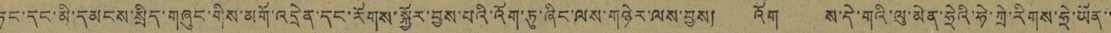ཏང་དང་མི་དམངས་སྲིད་གཞུང་གིས་མགོ་འདྲེན་དང་རོགས་སྐྱོར་བྱས་པའི་འོག་ཏུ་ཞིང་ལས་གཉེར་ལས་བྱས། འོག ས་དེ་གའི་ལུ་མེན་ཧྲེའི་ཧེ་ཧྲི་རིགས་ཧྲེ་ཡོན་་
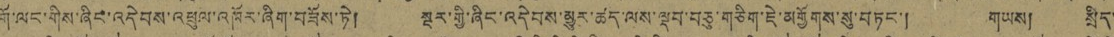གོ་ལང་གིས་ཞིང་འདེབས་འཕྲུལ་འཁོར་ཞིག་བཟོས་ཏེ། སྔར་གྱི་ཞིང་འདེབས་མྱུར་ཚད་ལས་ལྡབ་བཅུ་གཅིག་ཇེ་མགྱོགས་སུ་བཏང་། གཡས། སྲིད་
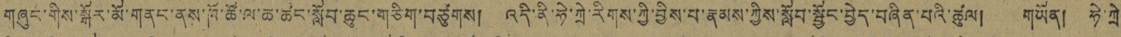གཞུང་གིས་སྒོར་མོ་གནང་ནས་ཁོ་ཚོ་ལ་ཆ་ཚང་སློབ་ཆུང་གཅིག་བཙུགས། འདི་ནི་ཧྲེ་ཀྲེ་རིགས་ཀྱི་བྱིས་པ་རྣམས་ཀྱིས་སློབ་སྦྱོང་བྱད་བཞིན་པའི་ཚུལ། གཡོན། ཧེ་ཀྲེ
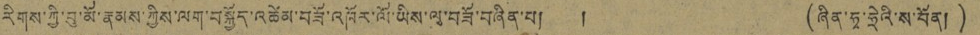རིགས་ཀྱི་བུ་མོ་རྣམས་ཀྱིས་ལག་བསྐྱོད་འཚེམ་བཟོ་འཁོར་ལོ་ཡིས་ལུ་བཟོ་བཞིན་པ། ། (ཞིན་ཧྭ་ཧྲེའི་ས་བོན།)
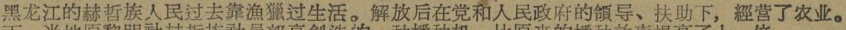黑龙江的赫哲族人民过去靠漁獵过生活。解放后在党和人民政府的領导、扶助下，經营了农业。
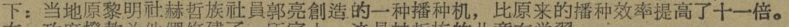下：当地原黎明社赫哲族社員郭亮創造的一种播种机，比原来的播种效率提高了十一倍。
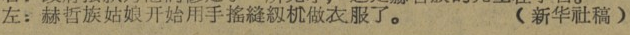左：赫哲族姑娘开始用手搖縫紉机做衣服了。 （新华社稿）
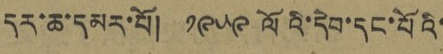དར་ཆ་དམར་པོ། ༡༩༥༩ ལོའི་དེབ་དང་པོའི་
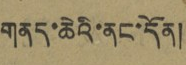གནད་ཆེའི་ནང་དོན།
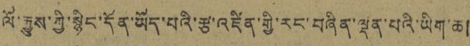ལོ་རྒྱུས་ཀྱི་སྙིང་དོན་ཡོད་པའི་རྩ་འཛིན་གྱི་རང་བཞིན་ལྡན་པའི་ཡིག་ཆ།
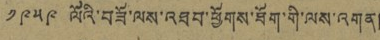༡༩༥༩ ལོའི་བཟོ་ལས་འཐབ་ཕྱོགས་ཐོག་གི་ལས་འགན།
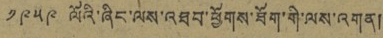༡༩༥༩ ལོའི་ཞིང་ལས་འཐབ་ཕྱོགས་ཐོག་གི་ལས་འགན།
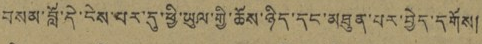བསམ་བློ་དེ་ངེས་པར་དུ་ཕྱི་ཡུལ་གྱི་ཆོས་ཉིད་དང་མཐུན་པར་བྱེད་དགོས།
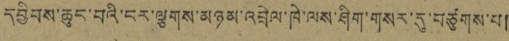དབྱིབས་ཆུང་བའི་ངར་ལྕགས་མཉམ་འབྲེལ་ཁེ་ལས་ཤིག་གསར་དུ་བཙུགས་པ།
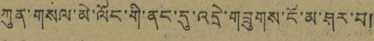ཀུན་གསལ་མེ་ལོང་གི་ནང་དུ་འདྲེ་གཟུགས་ངོ་མ་ཤར་བ།
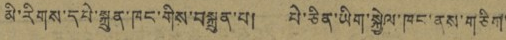མི་རིགས་དཔེ་སྐྲུན་ཁང་གིས་བསྐྲུན་པ། པེ་ཅིན་ཡིག་སྐྱེལ་ཁང་ནས་གཅིག་
